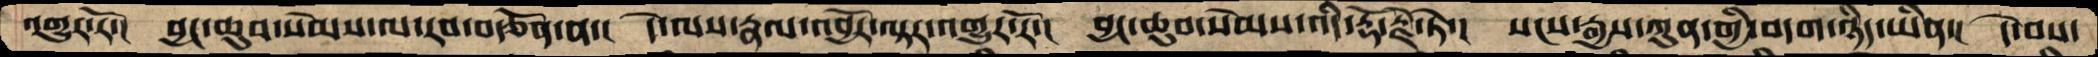འགྱུར་རོ་།  བྱང་ཆུབ་སེམས་ལ་རབ་བརྩོན་ན་།  དེ་ལས་རྣལ་འབྱོར་ལྟར་འགྱུར་རོ་།  བྱང་ཆུབ་སེམས་འདི་རྡོ་རྗེ་ཏེ་།  སངས་རྒྱས་ཀུན་གྱི་བདག་ཉིད་ཡིན་།  དེ་བས་
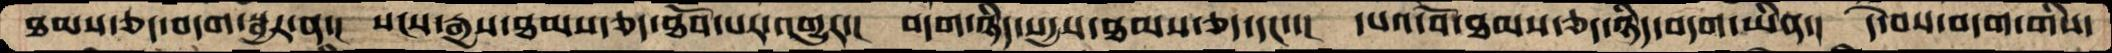ཐམས་ཅད་བདག་སྦྱར་ན་།  སངས་རྒྱས་ཐམས་ཅད་ཐོབ་པར་འགྱུར་།  བདག་ཉིད་སདྱས་ཐམས་ཅད་དང་་།  དཔའ་བོ་ཐམས་ཅད་ཉིད་བདག་ཡིན་།  དེ་བས་བདག་གིས་
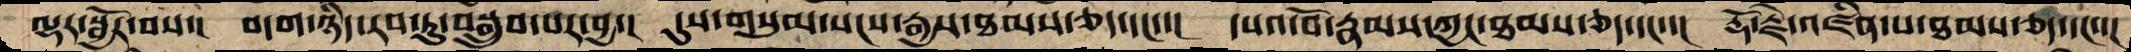ལྷར་སྦྱོར་བས་།  བདག་ཉིད་རབ་ཏུ་བསྒྲུབ་པར་བྱ་།  དུས་གསུམ་སངས་རྒྱས་ཐམས་ཅད་དང་་།  དཔའ་བོ་རྣམས་ཀྱང་ཐམས་ཅད་དང་་།  རྡོ་རྗེ་འཛིན་པ་ཐམས་ཅད་དང་་།
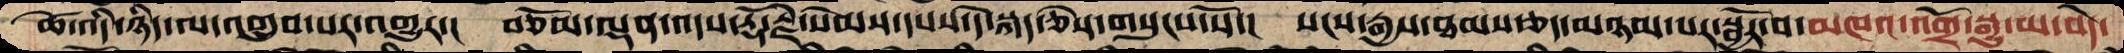ཚེ་འདི་ཉིད་ལ་འགྲུབ་པར་འགྱུར་།  བཅོམ་ལྡན་འདས་རྡོ་རྗེ་སེམས་དཔས་དེ་སྐད་ཅེས་གསུངས་སོ་།  སངས་རྒྱས་ཐམས་ཅད་མཉམ་པར་སྦྱོར་བ་མཁའ་འགྲོ་སྒྱུ་མ་བདེ་
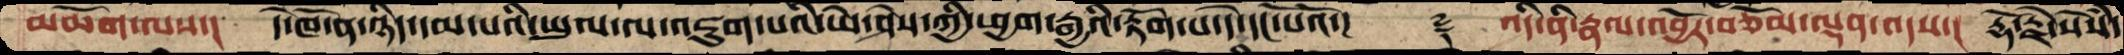མཆོག་ལས་།  དེ་ཁོ་ན་ཉིད་དམ་པའི་ཡུལ་ལ་འཇུག་པའི་ཤེས་ཀྱི་ཕྱག་རྒྱའི་རྟོག་པ་དེ་དང་པོའོ་།   ࿑   འདི་ནི་རྣལ་འབྱོར་བཅོམ་ལྡན་འདས་།  རྡོ་རྗེ་སེཾས་
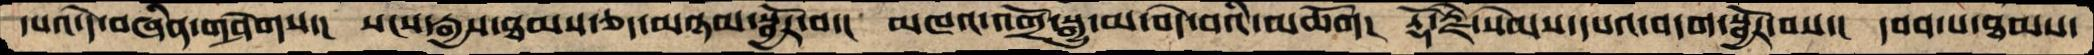དཔའ་དེ་བཞིན་གཤེགས་།  སངས་རྒྱས་ཐམས་ཅད་མཉམ་སྦྱོར་བ་།  མཁའ་འགྲོ་སྒྱུ་མ་བདེ་བའི་མཆོག།  རྡོ་རྗེ་སེམས་དཔའ་བདག་སྦྱོར་བས་།  དབབ་པ་ཐམས་
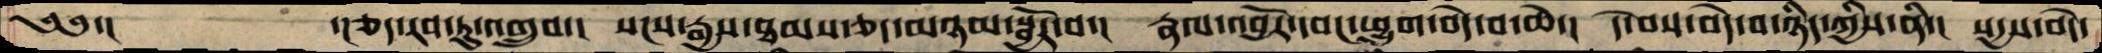༄༅་།            ་།ཅད་རབ་ཏུ་འགྲུབ་།  སངས་རྒྱས་ཐམས་ཅད་མཉམ་སྦྱོར་བ་།  རྣལ་འབྱོར་དབང་ཕྱུག་བདེ་བ་ཆེ་།  དེ་བས་བདེ་བ་ཉིད་ཀྱིས་ནི་།  སདྱས་བདེ་
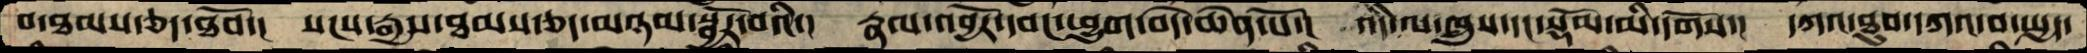བ་ཐམས་ཅད་ཐོབ་།   སངས་རྒྱས་ཐམས་ཅད་མཉམ་སྦྱོར་བའི་།  རྣལ་འབྱོར་དབང་ཕྱུག་བདེ་ཆེན་པོ་།  འདི་ལ་ཁྲུས་དང་སྡོམ་མི་དགོས་།  དཀའ་ཐུབ་དཀའ་བ་སྤྱད་
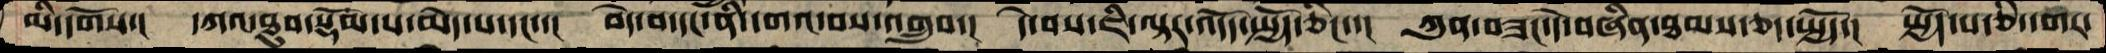མི་དགོས་།  དཀའ་ཐུབ་སྡོམ་པ་མེད་པ་དང་་།  བདེ་བ་དང་ནི་དགའ་བས་འགྲུབ་།   དེ་བས་ཇི་ལྟར་འདོད་སྤྱོད་ཅིང་་།  ཀུན་བཟང་དེ་བཞིན་ཐམས་ཅད་སྤྱོད་།  སྤྱོད་པ་ཅི་དགར་
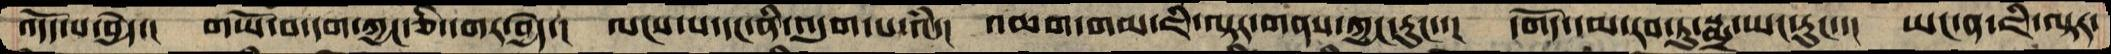འདོད་པ་བྱེད་།  གཡོ་བ་དག་ཀྱང་ཅི་དགར་བྱྱེད་།  ལངས་པ་དང་ནི་འདུག་པ་འཾ་།  འཆག་གམ་ཇི་ལྟར་གནས་ཀྱང་རུང་་།  དགོད་དམ་རབ་རུ་སྨྲ་ཡང་རུང་་།   ཡང་ན་ཇི་ལྟར་
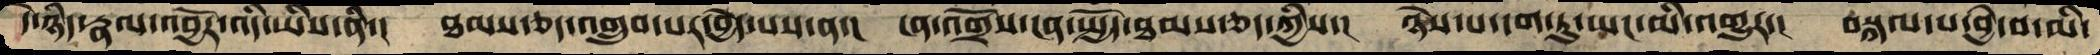དེ་ཉིད་རྣལ་འབྱོར་འདི་ཡིས་ནི་།  ཐམས་ཅད་འགྲུབ་པར་བྱེད་པས་ན་།  ངན་འགྲོས་ངན་སྤྱོད་ཐམས་ཅད་ཀྱིས་།  ཉེས་པ་དག་ཏུ་ཡང་མི་འགྱུར་།  བསྐལ་པ་བྱེ་བ་མི་
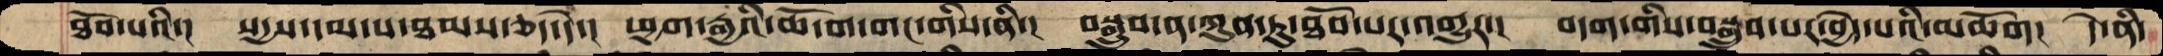ཐོབ་པའི་།  སདྱས་དམ་པ་ཐམས་ཅད་དེ་།  ཕྱག་རྒྱའི་ཆོ་ག་གང་གིས་ནི་།  བསྒྲུབ་ན་ཀུན་ཏུ་ཐོབ་པར་འགྱུར་།  བདག་གིས་བསྒྲུབ་པར་བྱེད་པའི་མཆོག།  དེ་ནི་
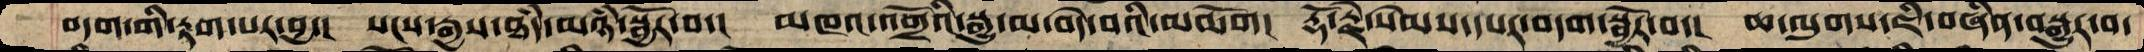བདག་གི་རྟག་པར་བྱ་།  སངས་རྒྱས་ཐཾད་མཉཾ་སྦྱོར་བ་།  མཁའ་འགྲོའི་སྒྱུ་མ་བདེ་བའི་མཆོག།  རྡོ་རྗེ་སེམས་དཔར་བདག་སྦྱོར་བ་།  ཆ་ལུགས་ཇི་བཞིན་བསྒྱུར་བ་
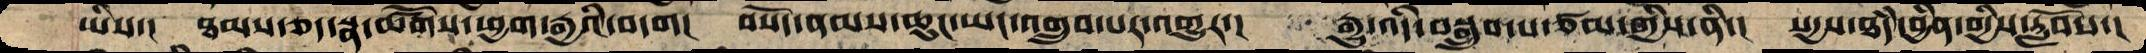ཡིས་།  ཐམས་ཅད་སྣ་ཚོགས་ཕྱག་རྒྱའི་བདག།  བསོད་ནམས་ཆུང་ཡང་འགྲུབ་པར་འགྱུར་།  རྒྱུ་འདི་བསྒྲུབ་པ་ཙམ་གྱིས་ནི་།  སདྱས་ཐཾད་བྱིན་གྱིས་རློབས་།
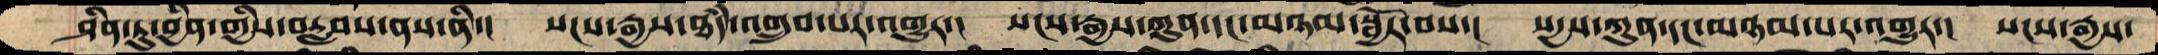ཤིན་ཏུ་བྱིན་གྱིས་བརླབས་ནས་ནི་།  སངས་རྒྱས་ཐཾད་འགྲུབ་པར་འགྱུར་།  སངས་རྒྱས་ཀུན་དང་མཉམ་སྦྱོར་བས་།  སདྱས་ཀུན་དང་མཉམ་པར་འགྱུར་།  སངས་རྒྱས་
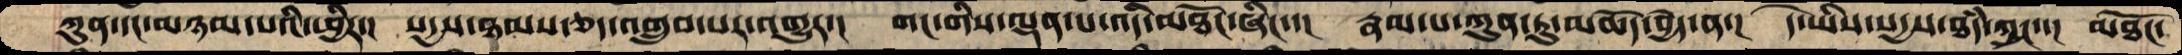ཀུན་དང་མཉམ་པའི་ཕྱིར་།  སདྱས་ཐམས་ཅད་འགྲུབ་པར་འགྱུར་།  གང་གིས་ལྡན་པ་འདི་མཐོང་ཞིང་་།  རྣམ་པ་ཀུན་ཏུ་མཆོད་བྱེད་ན་།  དེ་ཡིས་སདྱས་ཐཾད་ཀྱང་་།  མཐོང་
